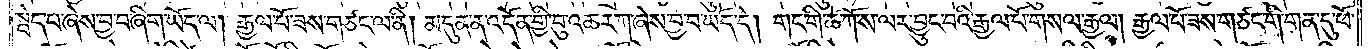སྦེད་པ་ཞེས་བྱ་བ་ཞིག་ཡོད་ལ། རྒྱལ་པོ་ཟས་གཙང་ལ་ནི། མདུན་ན་འདོན་གྱི་བུ་འཆར་ཀ་ཞེས་བྱ་བ་ཡོད་དེ། གང་གི་ཚེ་ཀོ་ས་ལར་བྱུང་བའི་རྒྱལ་པོ་གསལ་རྒྱལ། རྒྱལ་པོ་ཟས་གཙང་གི་གན་དུ་ཕོ་
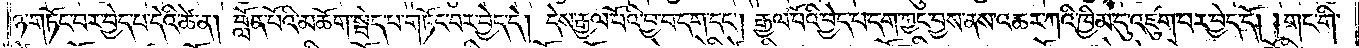ཉ་གཏོང་བར་བྱེད་པ་དེའི་ཚེ་ན། བློན་པོའི་མཆོག་སྦེད་པ་གཏོང་བར་བྱེད་དེ། དེས་རྒྱལ་པོའི་བྱ་བ་དག་དང༌། རྒྱལ་པོའི་བྱེད་པ་དག་ཀྱང་བྱས་ནས་འཆར་ཀའི་ཁྱིམ་དུ་འཇུག་པར་བྱེད་དོ། །གང་གི་
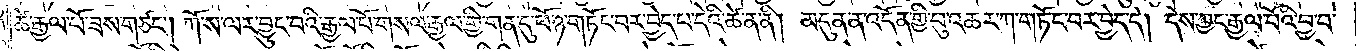ཚེ་རྒྱལ་པོ་ཟས་གཙང༌། ཀོ་ས་ལར་བྱུང་བའི་རྒྱལ་པོ་གསལ་རྒྱལ་གྱི་གན་དུ་ཕོ་ཉ་གཏོང་བར་བྱེད་པ་དེའི་ཚེ་ན་ནི། མདུན་ན་འདོན་གྱི་བུ་འཆར་ཀ་གཏོང་བར་བྱེད་དེ། དེས་ཀྱང་རྒྱལ་པོའི་བྱ་བ་
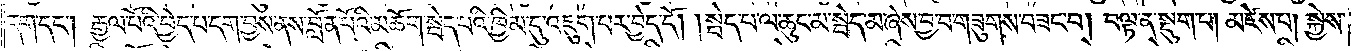དག་དང༌། རྒྱལ་པོའི་བྱེད་པ་དག་བྱས་ནས་བློན་པོའི་མཆོག་སྦེད་པའི་ཁྱིམ་དུ་འཇུག་པར་བྱེད་དོ། །སྦེད་པ་ལ་ཆུང་མ་སྦེད་མ་ཞེས་བྱ་བ་གཟུགས་བཟང་བ། བལྟ་ན་སྡུག་པ། མཛེས་པ། སྐྱེས་
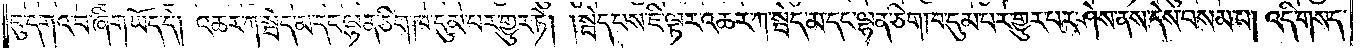བུ་དགའ་བ་ཞིག་ཡོད་དེ། འཆར་ཀ་སྦེད་མ་དང་ལྷན་ཅིག་ཁ་དུམ་པར་གྱུར་ཏེ། །སྦེད་པས་ཇི་ལྟར་འཆར་ཀ་སྤེད་མ་དང་ལྷན་ཅིག་ཁ་དུམ་པར་གྱུར་པར་ཤེས་ནས་དེས་བསམ་པ། འདི་གསད་
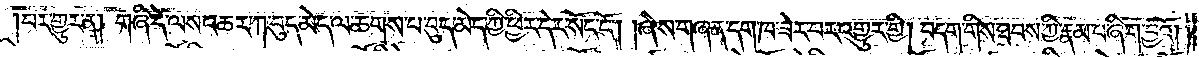བར་གྱུར་ན། གཞི་དེ་ལས་འཆར་ཀ་བུད་མེད་ལ་ཆགས་པ་བུད་མེད་ཀྱི་ཕྱིར་དེར་སོང་ངོ༌། །ཞེས་གཞན་དག་ཁ་ཟེར་བར་འགྱུར་གྱི། བདག་གིས་ཐབས་ཀྱི་རྣམ་པ་ཞིག་བྱའོ། །
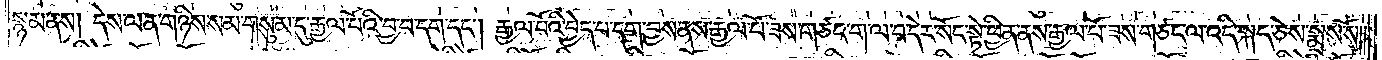སྙམ་ནས། དེས་ལན་གཉིས་སམ་གསུམ་དུ་རྒྱལ་པོའི་བྱ་བ་དག་དང༌། རྒྱལ་པོའི་བྱེད་པ་དག་བྱས་ནས་རྒྱལ་པོ་ཟས་གཙང་ག་ལ་བ་དེར་སོང་སྟེ་ཕྱིན་ནས་རྒྱལ་པོ་ཟས་གཙང་ལ་འདི་སྐད་ཅེས་སྨྲས་སོ༎
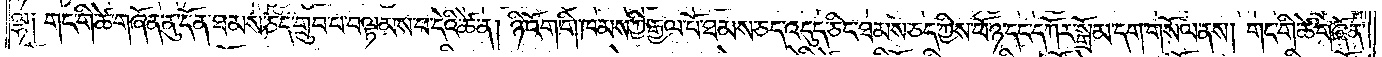ལྷ༑ གང་གི་ཚེ་གཞོན་ནུ་དོན་ཐམས་ཅད་གྲུབ་པ་བལྟམས་པ་དེའི་ཚེ་ན། ཉི་འོག་གི་ཁམས་ཀྱི་རྒྱལ་པོ་ཐམས་ཅད་འདུད་ཅིང་ཐམས་ཅད་ཀྱིས་ཕོ་ཉ་དང་དཀོར་སྒྲོམ་དག་གསོལ་ནས། གང་གི་ཚེ་གཞོན་
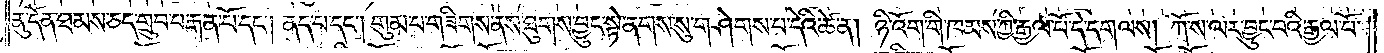ནུ་དོན་ཐམས་ཅད་གྲུབ་པ་རྒན་པོ་དང༌། ནད་པ་དང༌། གུམ་པ་གཟིགས་ནས་ཐུགས་བྱུང་སྟེ་ནགས་སུ་གཤེགས་པ་དེའི་ཚེ་ན། ཉི་འོག་གི་ཁམས་ཀྱི་རྒྱལ་པོ་དེ་དག་ལས། ཀོ་ས་ལར་བྱུང་བའི་རྒྱལ་པོ་
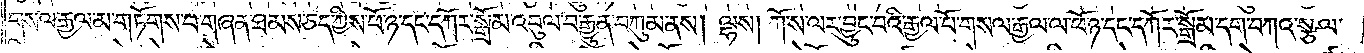གསལ་རྒྱལ་མ་གཏོགས་པ་གཞན་ཐམས་ཅད་ཀྱིས་ཕོ་ཉ་དང་དཀོར་སྒྲོམ་འབུལ་བ་རྒྱུན་བཀུམ་ནས། ལྷས། ཀོ་ས་ལར་བྱུང་བའི་རྒྱལ་པོ་གསལ་རྒྱལ་ལ་ཕོ་ཉ་དང་དཀོར་སྒྲོམ་དག་བཀའ་སྩལ་
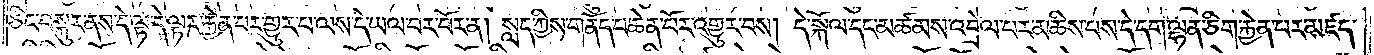ཅིང་བསྐུར་ནས་དེ་ལྟ་དེ་ལྟར་རྐྱེན་པར་གྱུར་པ་ལས་དེ་ཡལ་བར་བོར་ན། སླད་ཀྱིས་གནོད་པ་ཆེན་པོར་འགྱུར་བས། དེ་སྐོལ་དང་མཚམས་འབྲེལ་པར་མཆིས་པས་དེ་དག་ལྷན་ཅིག་རྐྱེན་པར་མཛད་
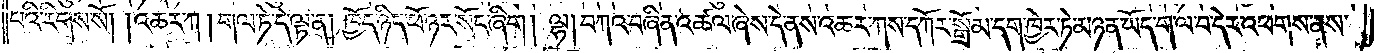པའི་རིགས་སོ། །འཆར་ཀ། གལ་ཏེ་དེ་ལྟ་ན། ཁྱོད་ཉིད་ཕོ་ཉར་སོང་ཞིག། ལྷ། བཀའ་བཞིན་འཚལ་ཞེས་དེ་ནས་འཆར་ཀས་དཀོར་སྒྲོམ་དག་ཁྱེར་ཏེ་མཉན་ཡོད་ག་ལ་བ་དེར་འཕགས་ནས་
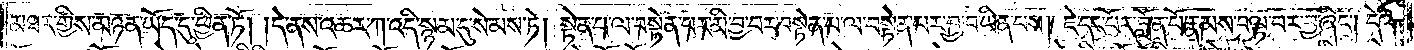མཐར་གྱིས་མཉན་ཡོད་དུ་ཕྱིན་ཏོ། །དེ་ནས་འཆར་ཀ་འདི་སྙམ་དུ་སེམས་ཏེ། སྟེན་པ་ལ་བསྟེན་པར་མི་བྱ་བར་བསྟེན་པ་ལ་བསྟེན་པར་བྱ་བ་ཡིན་པས། ཇེ་དང་པོར་བློན་པོ་རྣམས་བལྟ་བར་བྱ་ཞིང༌། དེའི་
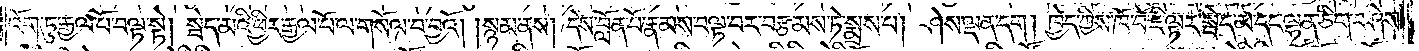འོག་ཏུ་རྒྱལ་པོ་བལྟ་སྟེ། སྦེད་མའི་ཕྱིར་རྒྱལ་པོ་ལ་གསོལ་བ་བྱའོ། །སྙམ་ནས། དེས་བློན་པོ་རྣམས་བལྟ་བར་བརྩམས་ཏེ་སྨྲས་པ། ཤེས་ལྡན་དག། ཁྱེད་ཀྱིས་ཁོ་བོ་ཇི་ལྟར་སྦེད་མ་དང་ལྷན་ཅིག་བཤེས་
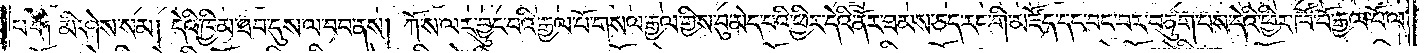པ་དེ། མི་ཤེས་སམ། དེའི་ཁྱིམ་ཐབ་དུས་ལ་བབ་ནས། ཀོ་ས་ལར་བྱུང་བའི་རྒྱལ་པོ་གསལ་རྒྱལ་གྱིས་བུ་མེད་པའི་ཕྱིར་དེའི་ནོར་ཐམས་ཅད་རང་གི་མཛོད་དང་བང་བར་བཅུག་པས་དེའི་ཕྱིར་ཁོ་བོ་རྒྱལ་པོ་ལ་
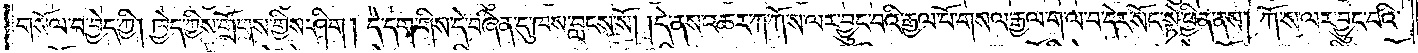གསོལ་བ་བྱེད་ཀྱི། ཁྱེད་ཀྱིས་གྲོགས་ཀྱིས་ཤིག །དེ་དག་གིས་དེ་བཞིན་དུ་ཁས་བླངས་སོ། །དེ་ནས་འཆར་ཀ་ཀོ་ས་ལར་བྱུང་བའི་རྒྱལ་པོ་གསལ་རྒྱལ་ག་ལ་བ་དེར་སོང་སྟེ་ཕྱིན་ནས། ཀོ་ས་ལར་བྱུང་བའི་
